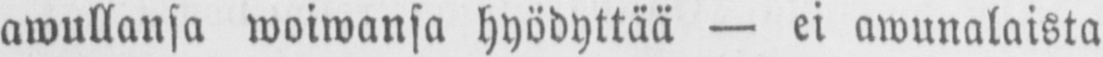awullanja woiwansa hyödyttää — ei awunalaista
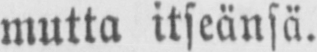mutta itseänsä.
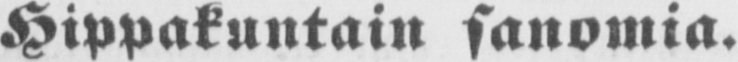Hippakuntain sanomia.
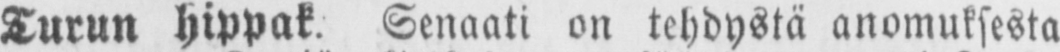Turun hippak. Senaati on tehdystä anomuksesta
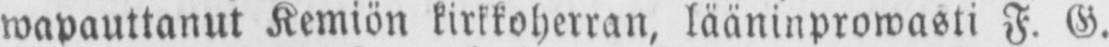wapauttanut Kemiön kirkkoherran, lääninprowasti F. G.
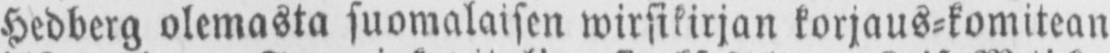Hedberg olemasta suomalaisen wirsikirjan korjaus-komitean
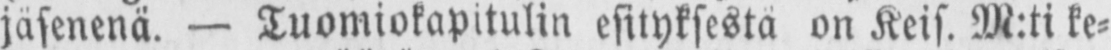jäsenenä. — Tuomiokapitulin esityksestä on Keis. M:ti ke-
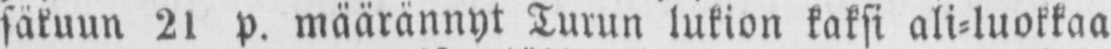säkuun 2l p. määrännyt Turun lukion kaksi ali-luokkaa
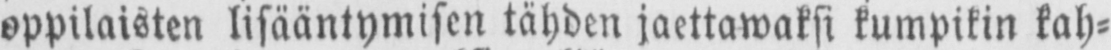oppilaisten lisääntymisen tähden jaettawaksi kumpikin kah-
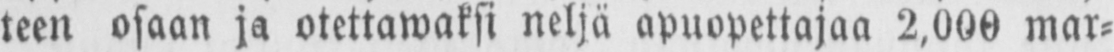teen osaan ja otettawaksi neljä apuopettajaa 2,000 mar-
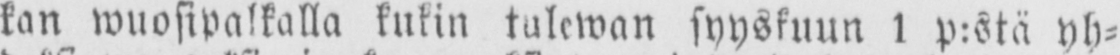kan wuosipalkalla kukin tulewan syyskuun 1 p:stä yh-
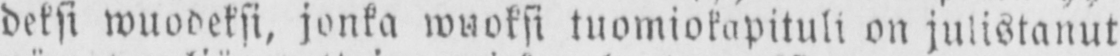deksi wuodeksi, jonka wuoksi tuomiokapituli on julistanut
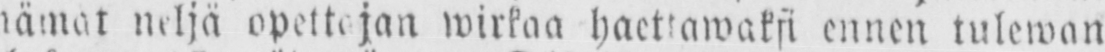nämät neljä opettajan wirkaa haettawaksi ennen tulewan
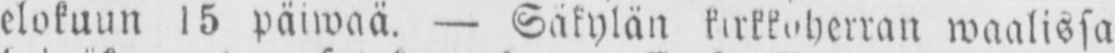elokuun 15 päiwaä. — Säkylän kirkkaherran waalissa
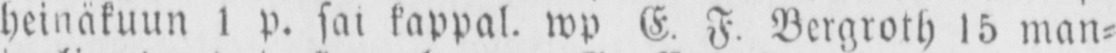heinäkuun l p. sai kappal. wp E. F. Bergroth 15 man-
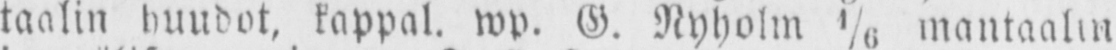taalin huudot, kappal. wp. G. Nyhol m ⅙ mantaalin
